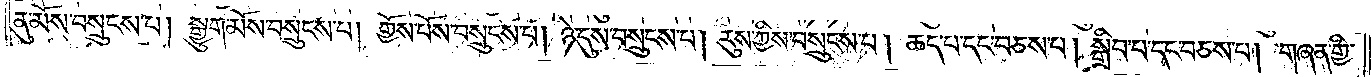ནུ་མོས་བསྲུངས་པ། སྒྱུག་མོས་བསྲུངས་པ། གྱོས་པོས་བསྲུངས་པ། ཉེ་དུས་བསྲུངས་པ། རུས་ཀྱིས་བསྲུངས་པ། ཆད་པ་དང་བཅས་པ། སྒྲིབ་པ་དང་བཅས་པ། གཞན་གྱི་
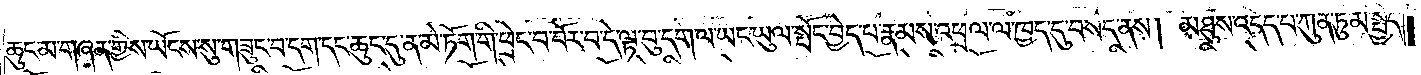ཆུང་མ་གཞན་གྱིས་ཡོངས་སུ་གཟུང་བ་དག་དང་ཆུང་དུ་ན་མེ་ཏོག་གི་ཕྲེང་བ་བོར་བ་དེ་ལྟ་བུ་དག་ལ་ཡང་ཡུལ་སྤོང་བྱེད་པ་རྣམས་འཕྲལ་ལ་ཁྱད་དུ་བསད་ནས། མཐུས་འདོད་པ་ཀུན་ཏུ་མི་སྤྱོད་
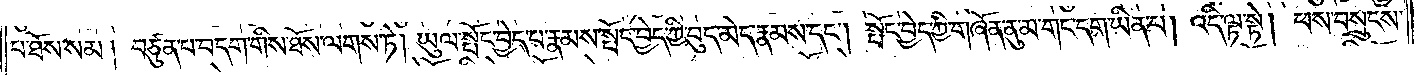པ་ཐོས་སམ། བཙུན་པ་བདག་གིས་ཐོས་ལགས་ཏེ། ཡུལ་སྤོང་བྱེད་པ་རྣམས་སྤོང་བྱེད་ཀྱི་བུད་མེད་རྣམས་དང༌། སྤོང་བྱེད་ཀྱི་གཞོན་ནུ་མ་གང་དག་ཡིན་པ། འདི་ལྟ་སྟེ། ཕས་བསྲུངས་
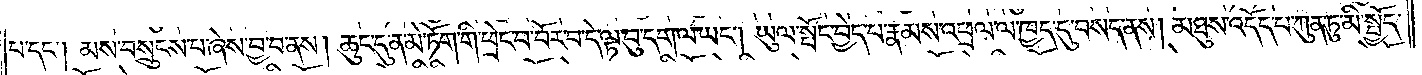པ་དང༌། མས་བསྲུངས་པ་ཞེས་བྱ་བ་ནས། ཆུང་ངུ་ན་མེ་ཏོག་གི་ཕྲེང་བ་བོར་བ་དེ་ལྟ་བུ་དག་ལ་ཡང༌། ཡུལ་སྤོང་བྱེད་རྣམས་འཕྲལ་ལ་ཁྱད་དུ་བསད་ནས། མཐུས་འདོད་པ་ཀུན་ཏུ་མི་སྤྱོད་
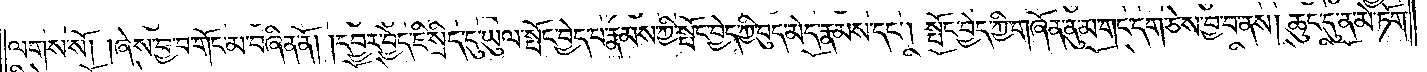ལགས་སོ། །ཞེས་བྱ་བ་གོང་མ་བཞིན་ནོ། །དབྱར་བྱེད་ཇི་སྲིད་དུ་ཡུལ་སྤོང་བྱེད་པ་རྣམས་ཀྱི་སྤོང་བྱེད་ཀྱི་བུད་མེད་རྣམས་དང༌། སྤོང་བྱེད་ཀྱི་གཞོན་ནུ་མ་གང་དག་ཅེས་བྱ་བ་ནས། ཆུང་དུ་ན་མེ་ཏོག་
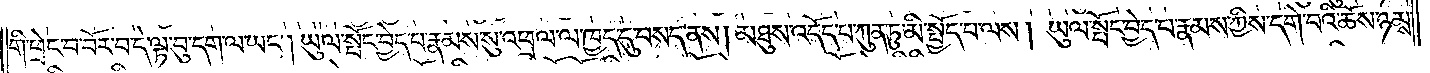གི་ཕྲེང་བ་བོར་བ་དེ་ལྟ་བུ་དག་ལ་ཡང༌། ཡུལ་སྤོང་བྱེད་པ་རྣམས་སུ་འཕྲལ་ལ་ཁྱད་དུ་བསད་ནས། མཐུས་འདོད་པ་ཀུན་ཏུ་མི་སྤྱོད་པ་ལས། ཡུལ་སྤོང་བྱེད་པ་རྣམས་ཀྱིས་དགེ་བའི་ཆོས་ཉམས་
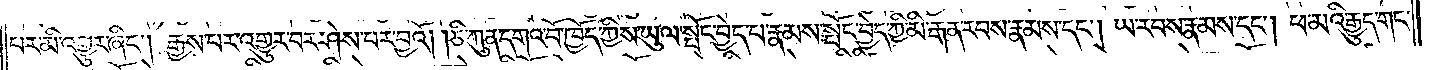པར་མི་འགྱུར་ཞིང༌། རྒྱས་པར་འགྱུར་བར་ཤེས་པར་བྱའོ། །ཅི་ཀུན་དགའ་བོ་ཁྱོད་ཀྱིས་ཡུལ་སྤོང་བྱེད་པ་རྣམས་སྤོང་བྱེད་ཀྱི་མི་རྒན་རབས་རྣམས་དང༌། ཡ་རབས་རྣམས་དང༌། ཕ་མའི་རྒྱུད་གང་
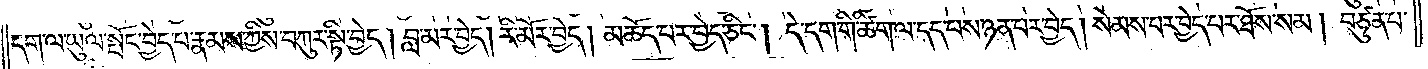དག་ལ་ཡུལ་སྤོང་བྱེད་པ་རྣམས་ཀྱིས་བཀུར་སྟི་བྱེད། བླ་མར་བྱེད། རི་མོར་བྱེད། མཆོད་པར་བྱེད་ཅིང༌། དེ་དག་གི་ཚིག་ལ་དད་པས་ཉན་པར་བྱེད། སེམས་པར་བྱེད་པར་ཐོས་སམ། བཙུན་པ་
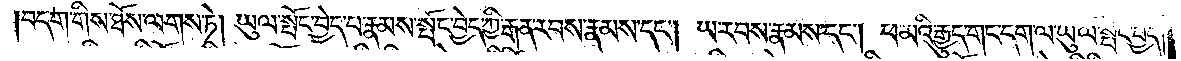བདག་གིས་ཐོས་ལགས་ཏེ། ཡུལ་སྤོང་བྱེད་པ་རྣམས་སྤོང་བྱེད་ཀྱི་རྒན་རབས་རྣམས་དང༌། ཡ་རབས་རྣམས་དང༌། ཕ་མའི་རྒྱུད་གང་དག་ལ་ཡུལ་སྤོང་བྱེད་
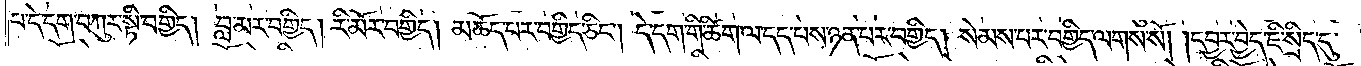པ་དེ་དག་བཀུར་སྟི་བགྱིད། བླ་མར་བགྱིད། རི་མོར་བགྱིད། མཆོད་པར་བགྱིད་ཅིང༌། དེ་དག་གི་ཚིག་ལ་དད་པས་ཉན་པར་བགྱིད། སེམས་པར་བགྱིད་ལགས་སོ། །དབྱར་བྱེད་ཇི་སྲིད་དུ་
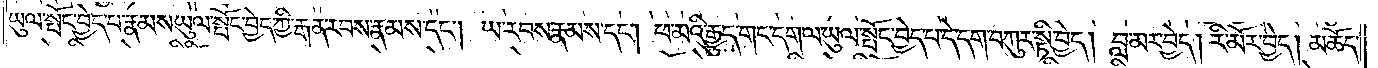ཡུལ་སྤོང་བྱེད་པ་རྣམས་ཡུལ་སྤོང་བྱེད་ཀྱི་རྒན་རབས་རྣམས་དང༌། ཡ་རབས་རྣམས་དང༌། ཕ་མའི་རྒྱུད་གང་དག་ལ་ཡུལ་སྤོང་བྱེད་པ་དེ་དག་བཀུར་སྟི་བྱེད། བླ་མར་བྱེད། རི་མོར་བྱེད། མཆོད་
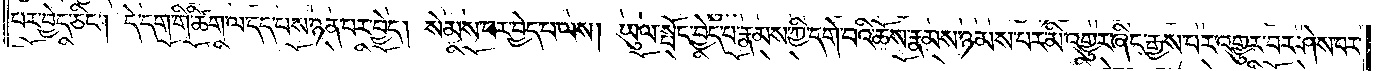པར་བྱེད་ཅིང༌། དེ་དག་གི་ཚིག་ལ་དད་པས་ཉན་པར་བྱེད། སེམས་པར་བྱེད་པ་ལས། ཡུལ་སྤོང་བྱེད་པ་རྣམས་ཀྱི་དགེ་བའི་ཆོས་རྣམས་ཉམས་པར་མི་འགྱུར་ཞིང་རྒྱས་པར་འགྱུར་བར་ཤེས་བར་
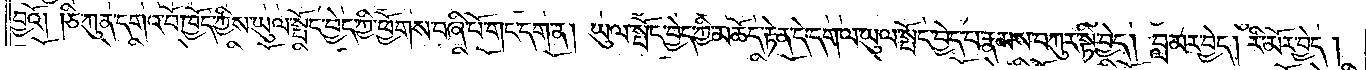བྱའོ། །ཅི་ཀུན་དགའ་བོ་ཁྱོད་ཀྱིས་ཡུལ་སྤོང་བྱེད་ཀྱི་ཕྱོགས་བཞི་པོ་གང་དག་ན། ཡུལ་སྤོང་བྱེད་ཀྱི་མཆོད་རྟེན་དེ་དག་ལ་ཡུལ་སྤོང་བྱེད་པ་རྣམས་བཀུར་སྟི་བྱེད། བླ་མར་བྱེད། རི་མོར་བྱེད།
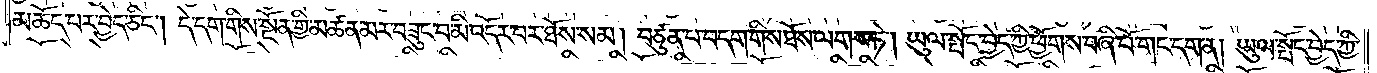མཆོད་པར་བྱེད་ཅིང༌། དེ་དག་གིས་སྔོན་གྱི་མཚན་མར་བཟུང་བ་མི་འདོར་བར་ཐོས་སམ། བཙུན་པ་བདག་གིས་ཐོས་ལགས་ཏེ། ཡུལ་སྤོང་བྱེད་ཀྱི་ཕྱོགས་བཞི་པོ་གང་དག་ན། ཡུལ་སྤོང་བྱེད་ཀྱི་
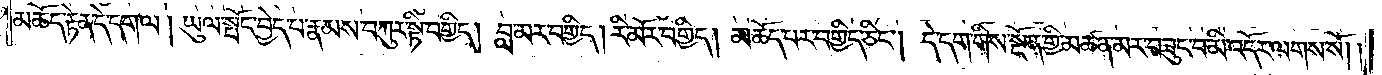མཆོད་རྟེན་དེ་དག་ལ། ཡུལ་སྤོང་བྱེད་པ་རྣམས་བཀུར་སྟི་བགྱིད། བླ་མར་བགྱིད། རི་མོར་བགྱིད། མཆོད་པར་བགྱིད་ཅིང༌། དེ་དག་གིས་སྔོན་གྱི་མཚན་མར་བཟུང་བ་མི་འདོར་ལགས་སོ། །
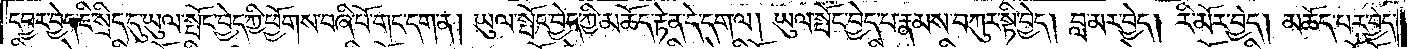དབྱར་བྱེད་ཇི་སྲིད་དུ་ཡུལ་སྤོང་བྱེད་ཀྱི་ཕྱོགས་བཞི་པོ་གང་དག་ན། ཡུལ་སྤོང་བྱེད་ཀྱི་མཆོད་རྟེན་དེ་དག་ལ། ཡུལ་སྤོང་བྱེད་པ་རྣམས་བཀུར་སྟི་བྱེད། བླ་མར་བྱེད། རི་མོར་བྱེད། མཆོད་པར་བྱེད་
